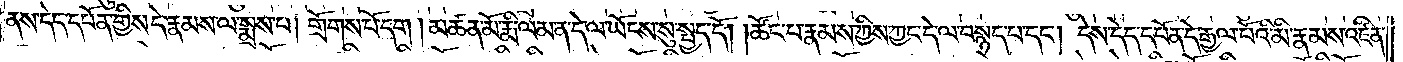ནས་དེད་དཔོན་གྱིས་དེ་རྣམས་ལ་སྨྲས་པ། གྲོགས་པོ་དག །མཚན་མོ་རྨི་ལམ་ན་དེ་ལ་ཡོངས་སུ་སྤྱད་དོ། །ཚོང་པ་རྣམས་ཀྱིས་ཀྱང་དེ་ལ་བསྙད་པ་དང༌། དེས་དེད་དཔོན་དེ་རྒྱལ་པོའི་མི་རྣམས་འཛིན་
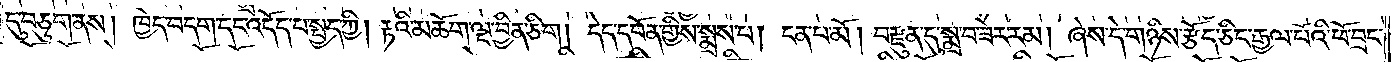དུ་བཅུག་ནས། ཁྱེད་བདག་དང་འདོད་པ་སྤྱད་ཀྱི། རྟའི་མཆོག་ལྔ་བྱིན་ཅིག །དེད་དཔོན་གྱིས་སྨྲས་པ། ངན་པ་མོ། བརྫུན་དུ་སྨྲ་བ་ཟེར་རམ། ཞེས་དེ་གཉིས་རྩོད་ཅིང་རྒྱལ་པོའི་ཕོ་བྲང་
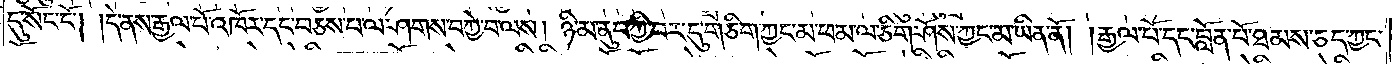དུ་སོང་ངོ༌། །དེ་ནས་རྒྱལ་པོ་འཁོར་དང་བཅས་པ་ལ་ཤགས་བཀྱེ་བ་ལས། ཉི་མ་ནུབ་ཀྱི་བར་དུ་གཅིག་ཀྱང་མ་ཕམ་ལ་ཅིག་ཤོས་ཀྱང་མ་ཡིན་ནོ། །རྒྱལ་པོ་དང་བློན་པོ་ཐམས་ཅད་ཀྱང་
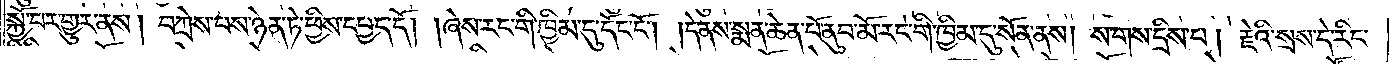སྐྱོ་བར་གྱུར་ནས། བཀྲེས་པས་ཉེན་ཏེ་ཕྱིས་དཔྱད་དོ། །ཞེས་རང་གི་ཁྱིམ་དུ་དོང་ངོ༌། །དེ་ནས་སྨན་ཆེན་པོ་ནུབ་མོ་རང་གི་ཁྱིམ་དུ་སོན་ནས། ས་གས་དྲིས་པ། རྗེའི་སྲས་དེ་རིང་
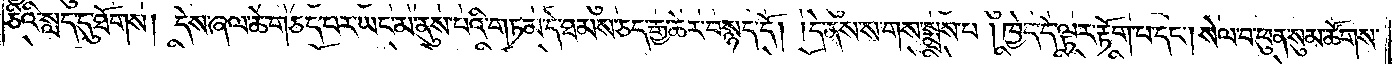ཅིའི་སླད་དུ་ཐོགས། དེས་ཞལ་ཆེ་གཅད་པར་ཡང་མ་ནུས་པའི་གཏམ་དེ་ཐམས་ཅད་རྒྱ་ཆེར་བསྙད་དོ། །དེ་ནས་ས་གས་སྨྲས་པ། ཁྱེད་དེ་ལྟར་རྟོག་པ་དང༌། སེལ་བ་ཕུན་སུམ་ཚོགས་
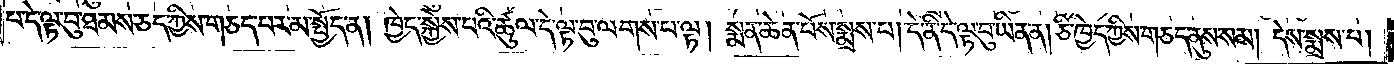པ་དེ་ལྟ་བུ་ཐམས་ཅད་ཀྱིས་གཅད་པར་མ་སྤྱོད་ན། ཁྱེད་སྐྱེས་པའི་ཚུལ་དེ་ལྟ་བུ་ལགས་པ་ལྟ། སྨན་ཆེན་པོས་སྨྲས་པ། དེ་ནི་དེ་ལྟ་བུ་ཡིན་ན། ཅི་ཁྱེད་ཀྱིས་གཅད་ནུས་སམ། དེས་སྨྲས་པ།
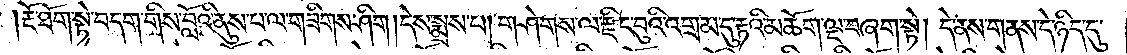རྔོ་ཐོག་སྟེ་བདག་གིས་བློའི་ནུས་པ་ལ་གཟིགས་ཤིག །དེས་སྨྲས་པ། གཤེགས་ལ་རྫིང་བུའི་འགྲམ་དུ་རྟའི་མཆོག་ལྔ་བཞག་སྟེ། དེ་ནས་གནས་དེ་ཉིད་དུ་
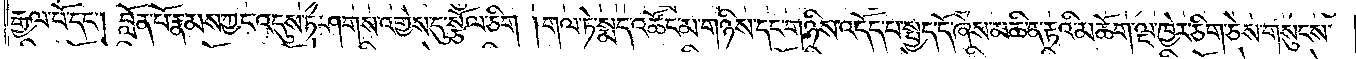རྒྱལ་པོ་དང༌། བློན་པོ་རྣམས་ཀྱང་འདུས་ཏེ་ཤགས་འགྱེས་དུ་སྩོལ་ཅིག །གལ་ཏེ་སྨད་འཚོང་མ་གཉིས་དང་གཉིས་འདོད་པ་སྤྱད་དོ་ཞེས་མཆི་ན་རྟའི་མཆོག་ལྔ་ཁྱེར་ཅིག་ཅེས་གསུངས་
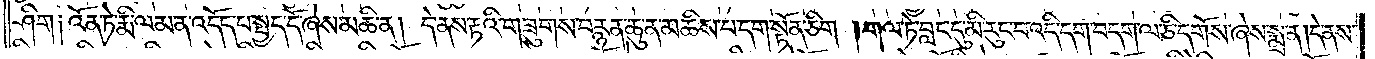ཤིག །འོན་ཏེ་རྨི་ལམ་ན་འདོད་པ་སྤྱད་དོ་ཞེས་མཆི་ན། དེ་ནས་རྟའི་གཟུགས་བརྙན་ཆུ་ན་མཆིས་པ་དག་སྟོན་ཅིག །གལ་ཏེ་བླང་དུ་མི་རུང་བ་འདི་དག་བདག་ལ་ཅི་དགོས་ཞེས་སྨྲ་ན། དེ་ནས་
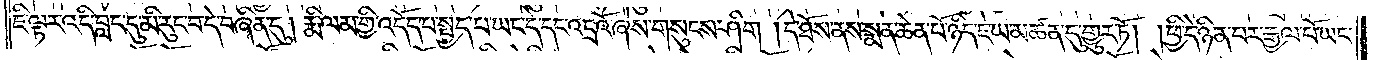ཇི་ལྟར་འདི་བླང་དུ་མི་རུང་བ་དེ་བཞིན་དུ། རྨི་ལམ་གྱི་འདོད་པ་སྤྱད་པ་ཡང་དེ་དང་འདྲའོ་ཞེས་གསུངས་ཤིག །དེ་ཐོས་ནས་སྨན་ཆེན་པོ་ཉིད་ཇེ་ཡ་མཚན་དུ་གྱུར་ཏོ། །ཕྱི་དེ་ཉིན་པར་རྒྱལ་པོ་ཡང་
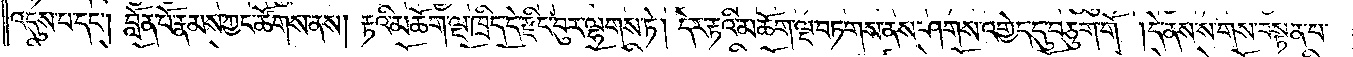འདུས་པ་དང༌། བློན་པོ་རྣམས་ཀྱང་ཚོགས་ནས། རྟའི་མཆོག་ལྔ་ཁྲིད་དེ་རྫིང་བུར་ལྷགས་ཏེ། དེར་རྟའི་མཆོག་ལྔ་བཏགས་ནས་ཤགས་འགྱེད་དུ་བཅུག་གོ །དེ་ནས་ས་གས་བསྟན་པ་
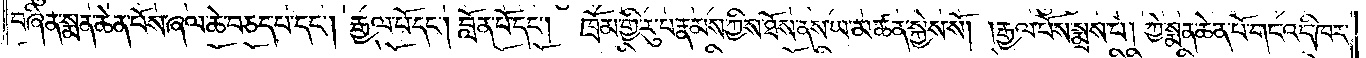བཞིན་སྨན་ཆེན་པོས་ཞལ་ཆེ་བཅད་པ་དང༌། རྒྱལ་པོ་དང༌། བློན་པོ་དང༌། ཁྲོམ་གྱི་རུ་པ་རྣམས་ཀྱིས་ཐོས་ནས་ཡ་མཚན་སྐྱེས་སོ། །རྒྱལ་པོས་སྨྲས་པ། ཀྱེ་སྨན་ཆེན་པོ་གང་འདི་ཁར་
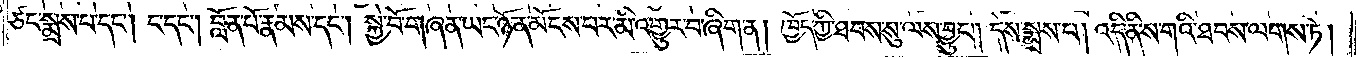ཙང་སྨྲས་པ་དང༌། ང་དང༌། བློན་པོ་རྣམས་དང༌། སྐྱེ་བོ་གཞན་ཡང་ཉོན་མོངས་པར་མི་འགྱུར་བ་ཞིག་ན། ཁྱོད་ཀྱི་ཐབས་སུ་ལས་བྱུང༌། དེས་སྨྲས་པ། འདི་ནི་ས་གའི་ཐབས་ལགས་ཏེ།
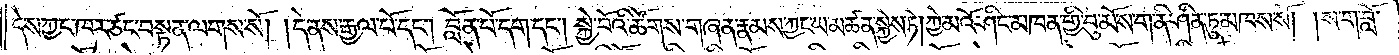དེས་ཀྱང་ཁར་ཙང་བསྟན་ལགས་སོ། །དེ་ནས་རྒྱལ་པོ་དང༌། བློན་པོ་དག་དང༌། སྐྱེ་བོའི་ཚོགས་གཞན་རྣམས་ཀྱང་ཡ་མཚན་སྐྱེས་ཏེ། ཀྱེ་མའོ་ཤིང་མཁན་གྱི་བུ་མོ་ས་ག་ནི་ཤིན་ཏུ་མཁས་སོ། །ས་ག་བློ་
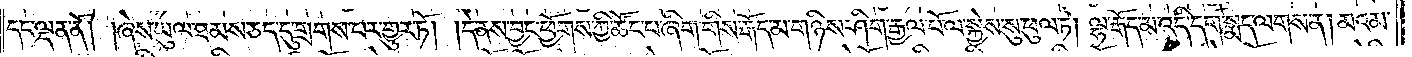དང་ལྡན་ནོ། །ཞེས་ཡུལ་ཐམས་ཅད་དུ་གྲགས་པར་གྱུར་ཏོ། །དེ་ནས་བྱང་ཕྱོགས་ཀྱི་ཚོང་པ་ཞིག་གིས་རྒོད་མ་གཉིས་ཤིག་རྒྱལ་པོ་ལ་སྐྱེས་སུ་ཕུལ་ཏེ། ལྷ་རྒོད་མ་འདི་དག་སྨད་ལགས་ན། མའམ་
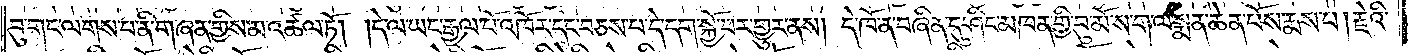བུ་གང་ལགས་པ་ནི་གཞན་གྱིས་མ་འཚལ་ཏོ། །དེ་ལ་ཡང་རྒྱལ་པོ་འཁོར་དང་བཅས་པ་དེ་དག་སྐྱོ་བར་གྱུར་ནས། དེ་ཁོ་ན་བཞིན་དུ་ཤིང་མཁན་གྱི་བུ་མོ་ས་ག་ལ་སྨན་ཆེན་པོས་རྨས་པ། རྗེའི་
